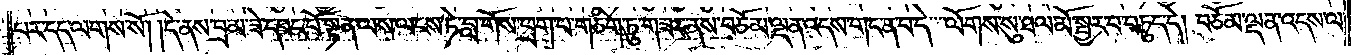པར་དད་ལགས་སོ། །དེ་ནས་བྲམ་ཟེ་དབང་པོ་སྟན་ལས་ལངས་ཏེ་བླ་གོས་ཕྲག་པ་གཅིག་ཏུ་གཟར་ནས་བཅོམ་ལྡན་འདས་གང་ན་བ་དེ་ལོགས་སུ་ཐལ་མོ་སྦྱར་བ་བཏུད་དེ། བཅོམ་ལྡན་འདས་ལ་
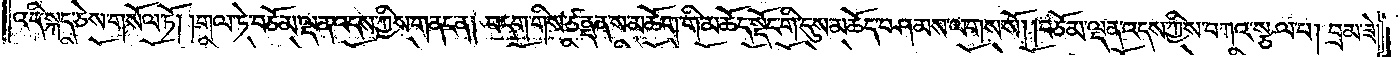འདི་སྐད་ཅེས་གསོལ་ཏོ། །གལ་ཏེ་བཅོམ་ལྡན་འདས་ཀྱིས་གནང་ན། བདག་གིས་ཙནྡན་ས་མཆོག་གི་མཆོད་སྡོང་གི་དུས་མཆོད་བཤམས་ལགས་སོ། །བཅོམ་ལྡན་འདས་ཀྱིས་བཀའ་སྩལ་པ། བྲམ་ཟེ་
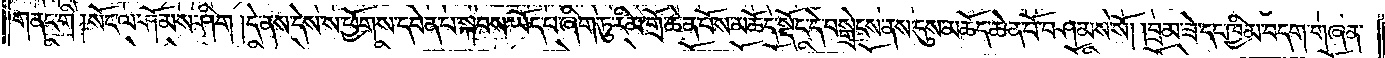གནང་གི །སོང་ལ་ཤོམས་ཤིག །དེ་ནས་དེས་ས་ཕྱོགས་དབེན་པ་སྐབས་ཡོད་པ་ཞིག་ཏུ་རིམ་གྲོ་ཆེན་པོས་མཆོད་སྡོང་དེ་བསྒྲེངས་ནས་དུས་མཆོད་ཆེན་པོ་བཤམས་སོ། །བྲམ་ཟེ་དང་ཁྱིམ་བདག་གཞན་
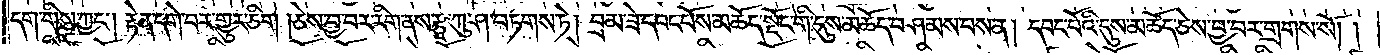དག་གིས་ཀྱང༌། རྟེན་དགེ་བར་གྱུར་ཅིག །ཅེས་བྱ་བར་རིག་ནས་རྩྭ་ཀུ་ཤ་བཏགས་ཏེ། བྲམ་ཟེ་དབང་པོས་མཆོད་སྡོང་གི་དུས་མཆོད་བཤམས་པས་ན། དབང་པོའི་དུས་མཆོད་ཅེས་བྱ་བར་གྲགས་སོ། །
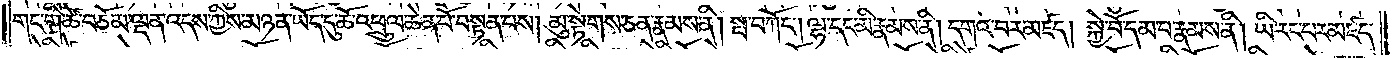གང་གི་ཚེ་བཅོམ་ལྡན་འདས་ཀྱིས་མཉན་ཡོད་དུ་ཆོ་འཕྲུལ་ཆེན་པོ་བསྟན་པས། མུ་སྟེགས་ཅན་རྣམས་ནི། སྤ་བཀོང༌། ལྷ་དང་མི་རྣམས་ནི། དགའ་བར་མཛད། སྐྱེ་བོ་དམ་པ་རྣམས་ནི། ཡི་རང་པར་མཛད་
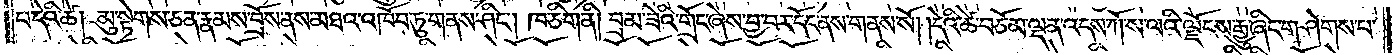པ་དེའི་ཚེ། མུ་སྟེགས་ཅན་རྣམས་བྲོས་ནས་མཐའ་འཁོབ་ཏུ་གནས་ཤིང༌། ཁ་ཅིག་ནི། བྲམ་ཟེའི་གྲོང་ཞེས་བྱ་བར་དོང་ནས་གནས་སོ། །དེའི་ཚེ་བཅོམ་ལྡན་འདས་ཀོ་ས་ལའི་ལྗོངས་རྒྱུ་ཞིང་གཤེགས་པ་
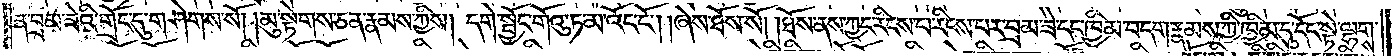ན་བྲམ་ཟེའི་གྲོང་དུ་གཤེགས་སོ། །མུ་སྟེགས་ཅན་རྣམས་ཀྱིས། དགེ་སྦྱོང་གོའུ་ཏ་མ་འོང་ངོ༌། །ཞེས་ཐོས་སོ། །ཐོས་ནས་ཀྱང་རིངས་པ་རིངས་པར་བྲམ་ཟེ་དང་ཁྱིམ་བདག་རྣམས་ཀྱི་ཁྱིམ་དུ་དོང་སྟེ་ལྷགས་
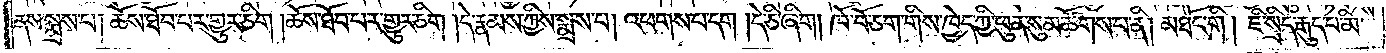ནས་སྨྲས་པ། ཆོས་ཐོབ་པར་གྱུར་ཅིག །ཆོས་ཐོབ་པར་གྱུར་ཅིག །དེ་རྣམས་ཀྱིས་སྨྲས་པ། འཕགས་པ་དག །དེ་ཅི་ཞིག །ཁོ་བོ་ཅག་གིས་ཁྱེད་ཀྱི་ཕུན་སུམ་ཚོགས་པ་ནི། མཐོང་གི །ཇི་སྲིད་རྒུད་པ་མི་
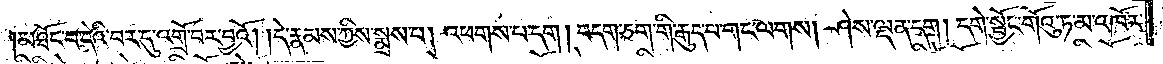མཐོང་བ་དེའི་བར་དུ་འགྲོ་བར་བྱའོ། །དེ་རྣམས་ཀྱིས་སྨྲས་པ། འཕགས་པ་དག །བདག་ཅག་གི་རྒུད་པ་གང་ལགས། ཤེས་ལྡན་དག །དགེ་སྦྱོང་གོའུ་ཏ་མ་འཁོར་
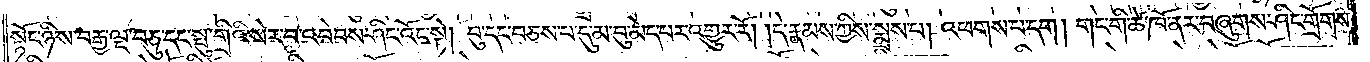སྟོང་ཉིས་བརྒྱ་ལྔ་བཅུ་དང་སྤུ་གྲིའི་སེར་བ་འབེབས་ཤིང་འོང་སྟེ། བུ་དང་བཅས་པ་དུ་མ་བུ་མེད་པར་འགྱུར་རོ། །དེ་རྣམས་ཀྱིས་སྨྲས་པ། འཕགས་པ་དག །གང་གི་ཚེ་ཁོ་ནར་བཞུགས་ཤིང་གྲོགས་
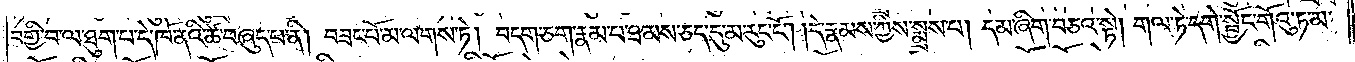བགྱི་བ་ལ་ཐུག་པ་དེ་ཁོ་ནའི་ཚེ་བཞུད་པ་ནི། བཟང་པོ་མ་ལགས་ཏེ། བདག་ཅག་རྣམ་པ་ཐམས་ཅད་དུ་མ་རུང་ངོ༌། །དེ་རྣམས་ཀྱིས་སྨྲས་པ། དམ་ཞིག་བཅའ་སྟེ། གལ་ཏེ་དགེ་སྦྱོང་གོའུ་ཏ་མ་
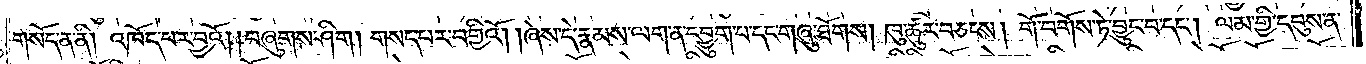གསོད་ན་ནི། འཁོད་པར་བྱའོ། །བཞུགས་ཤིག །གསད་པར་བགྱིའོ། །ཞེས་དེ་རྣམས་ལག་ན་དབྱུག་པ་དང་གཞུ་ཐོགས། ཁུ་ཚུར་བཅངས། གོ་བགོས་ཏེ་བྱུང་བ་དང༌། ལམ་གྱི་དབུས་ན་
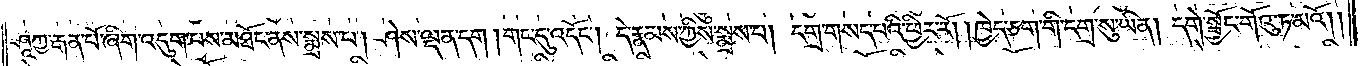ཤཱཀྱ་རྒན་པོ་ཞིག་འདུག་པས་མཐོང་ནས་སྨྲས་པ། ཤེས་ལྡན་དག། གང་དུ་འདོང༌། དེ་རྣམས་ཀྱིས་སྨྲས་པ། དགྲ་གསད་པའི་ཕྱིར་རོ། །ཁྱེད་ཅག་གི་དགྲ་སུ་ཡིན། དགེ་སྦྱོང་གོའུ་ཏ་མའོ། །
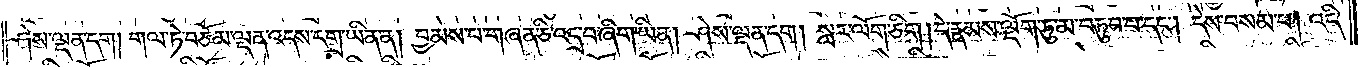ཤེས་ལྡན་དག །གལ་ཏེ་བཅོམ་ལྡན་འདས་དགྲ་ཡིན་ན། བྱམས་པ་གཞན་ཅི་འདྲ་བ་ཞིག་ཡིན། །ཤེས་ལྡན་དག །སླར་ལོག་ཅིག །དེ་རྣམས་ལྡོག་ཏུ་མ་བཏུབ་པ་དང༌། དེས་བསམ་པ། འདི་
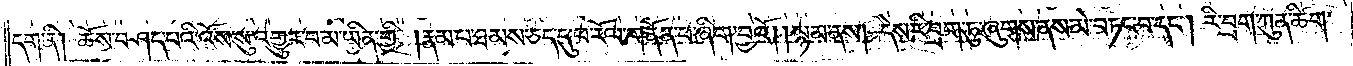དག་ནི། ཆོས་བཤད་པའི་འོས་སུ་འགྱུར་བ་མ་ཡིན་གྱི། རྣམ་པ་ཐམས་ཅད་དུ་ཕ་རོལ་གནོན་པ་ཞིག་བྱའོ། །སྙམ་ནས། དེས་རི་བྲག་ཏུ་ཞུགས་ནས་མེ་བཏང་བ་དང༌། རི་བྲག་ཀུན་ཚིག་
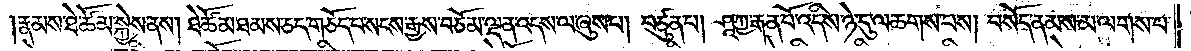རྣམས་ཐེ་ཚོམ་སྐྱེས་ནས། ཐེ་ཚོམ་ཐམས་ཅད་གཅོད་པ་སངས་རྒྱས་བཅོམ་ལྡན་འདས་ལ་ཞུས་པ། བཙུན་པ། ཤཱཀྱ་རྒན་པོ་འདིས་ཉེ་དུ་ལ་ཆགས་པས། བསོད་ནམས་མ་ལགས་པ་
